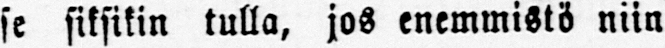se siksikin tulla, jos enemmistö niin
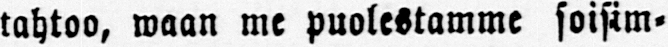tahtoo, waan me puolestamme soisim-
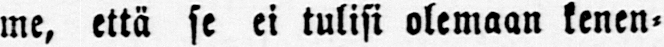me, että se ei tulisi olemaan kenen-
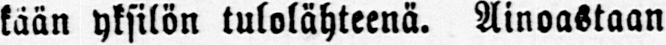kään yksilön tulolähteenä. Ainoastaan
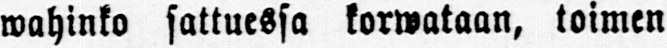wahinko sattuessa korwataan, toimen
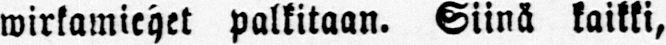wirkamiehet palkitaan. Siinä kaikki,
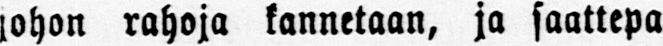lahon rahoja kannetaan, ja saattepa
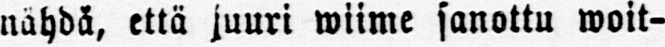nähdä, että juuri wiime sanottu woit-
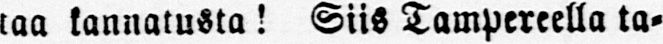taa kannatusta! Siis Tampereella ta-
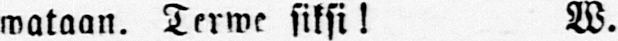wataan. Terwe siksi! W.
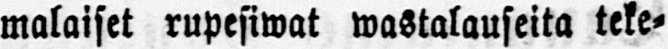malaiset rupesiwat wastalauseita teke-
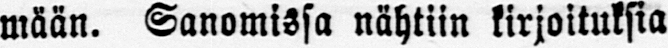mään. Sanomissa nähtiin kirjoituksia
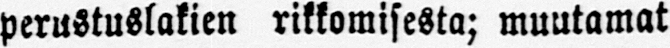perustuslakien rikkomisesta; muutamat
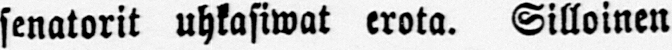senatorit uhkasiwat erota. Silloinen
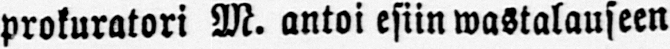prokuratori M. antoi esiin wastalauseen
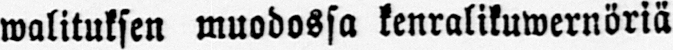walituksen muodossa kenralikuwernöriä
